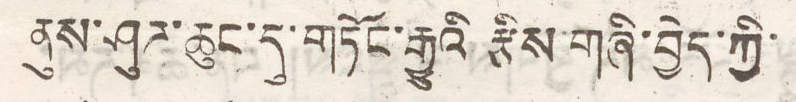ནུས་ཤུཌ་ཆུང་དུ་གཏོང་རྒྱུའི རྩིས་གཞི་བྱེད་ཀྱི་
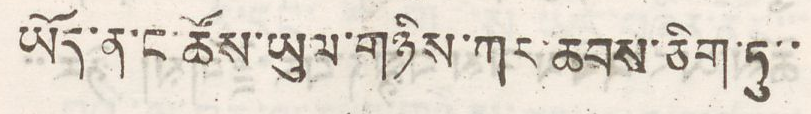ཡོད་ན་ང་ཚོས་ཡུལ་གཉིས་ཀར་ཆབས་ཅིག་ཏུ་་
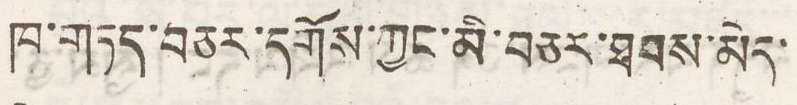ཁ་གཏད་བཅར་དགོས་ཀྱང་མི་བཅར་ཐབས་མེད་
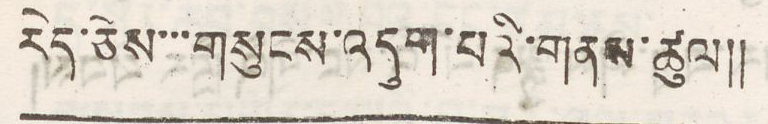རེད་ཅེས་་་གསུངས་འདུག་པའི་གནས་ཚུལ།།
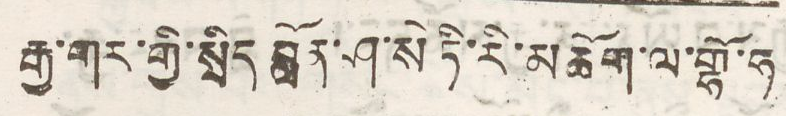རྒྱ་གར་གྱི་སྲིད བློན་ཤ་སེ་ཏི་རི་མཆོག་ལ་གྷོ་ཧ
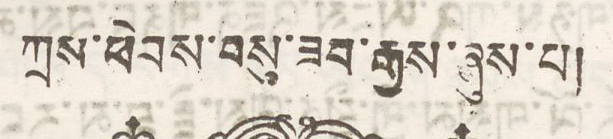ཀྲས་ཕེབས་བསུ་ཟབ་རྒྱས་ཞུས་པ།
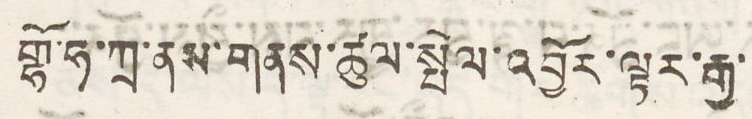གྷོ་ཧ་ཀྲ་ནས་གནས་ཚུལ་སྤེལ་འབྱོར་ལྟར་རྒྱ་
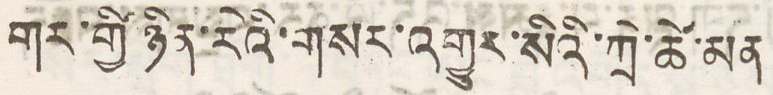གར་གྱི་ཉིན་རེའི་གསར་འགྱུར་སིའི་ཀྲེ་ཚེ་མན
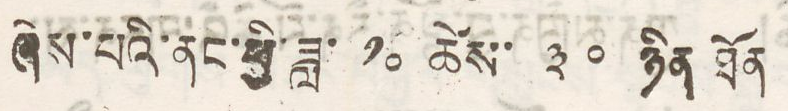ཞེས་པའི་ནང་ཕྱི་ཟླ་ ༡༠ ཚེས་ ༣༠ ཉིན ཐོན
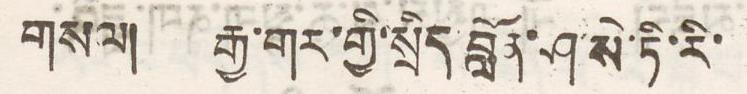གསལ། རྒྱ་གར་གྱི་སྲིད བློན་ཤ་སི་ཏི་རི་
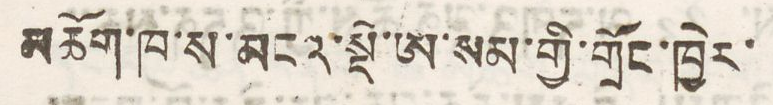མཆོག་ཁ་ས་མངའ་སྡེ་ཨ་སམ་གྱི་གྲོང་ཁྱེར་
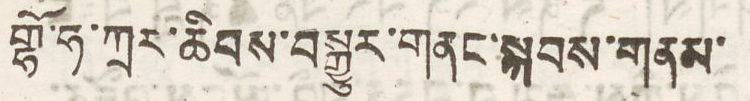གྷོ་ཧ་ཀྲར་ཆིབས་བསྒྱུར་གནང་སྐབས་གནམ་
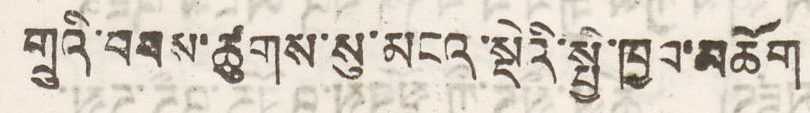གྲུའི་བབས་ཚུགས་སུ་མངའ་སྡེའི་སྤྱི་ཁྱབ་མཆོག
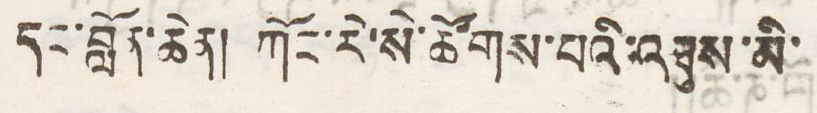དང་བློན་ཆེན། ཀོང་རེ་སོ་ཚོགས་པའི་འཐུས་མི་
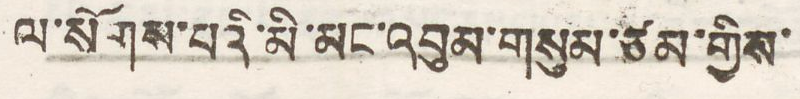ལ་སོགས་པའི་མི་མང་འབུམ་གསུམ་ཙམ་གྱིས་
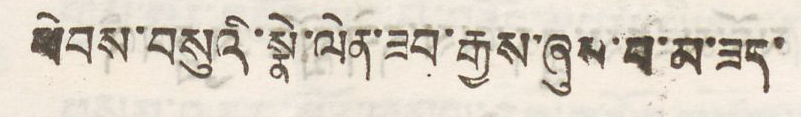ཕེབས་བསུའི་སྣེ་ལེན་ཟབ་རྒྱས་ཞུས་པ་མ་ཟད་
